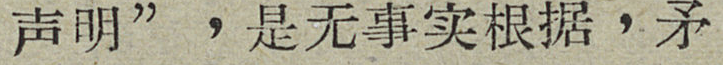声明”，是无事实根据，矛
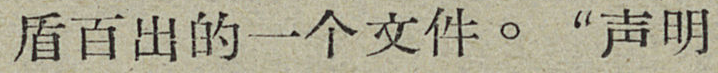盾百出的一个文件。“声明
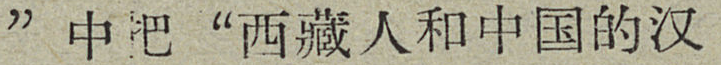”中把“西藏人和中国的汉
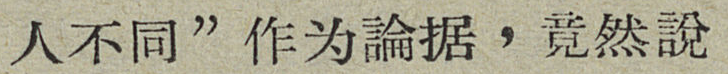人不同”作为論据，竟然說
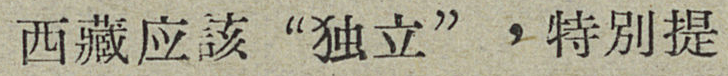西藏应該“独立”，特别提
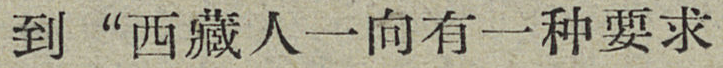到“西藏人一向有一种要求
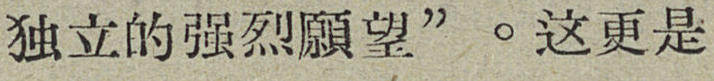独立的强烈願望”。这更是
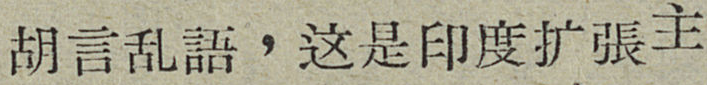胡言乱語，这是印度扩張主
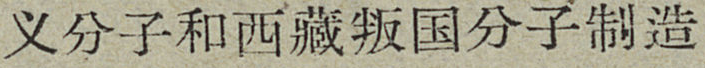义分子和西藏叛国分子制造
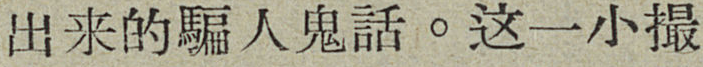出来的騙人鬼話。这一小撮
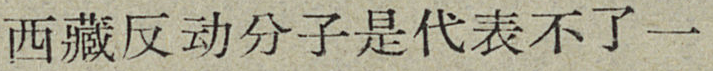西藏反动分子是代表部了一
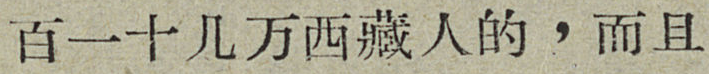百一十几万西藏人的，而且
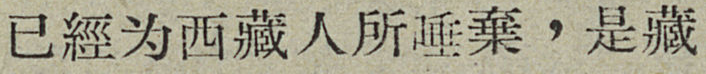已經为西藏人所唾棄，是藏
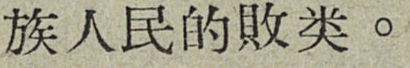族人民的敗类。
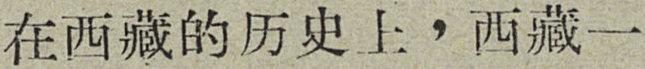在西藏的历史上，西藏一
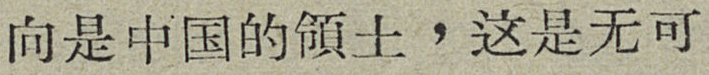向是中国的領土，这是无可
